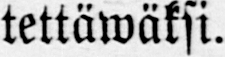tettäwäksi.
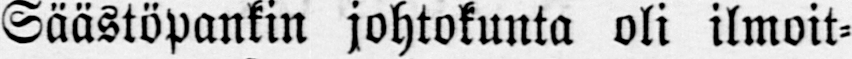Säästöpankin johtokunta oli ilmoit-
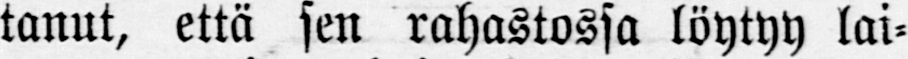tanut, että sen rahastossa löytyy lai-
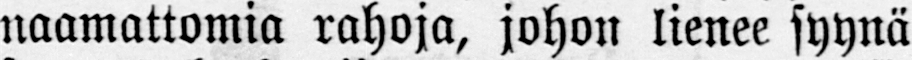naamattomia rahoja, johon lienee syynä
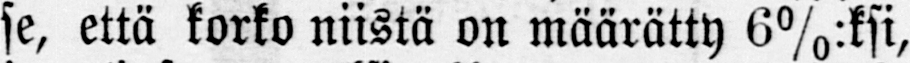se, että korko niistä on määrätty 6%: ksi,
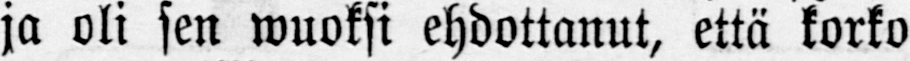ja oli sen wuoksi ehdottanut, että korko
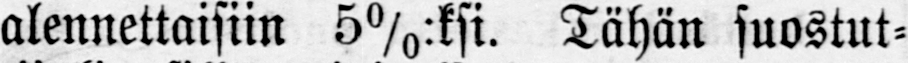alennettaisiin 5%:ksi. Tähän suostut-
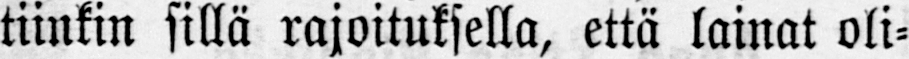tiinkin sillä rajoituksella, että lainat oli-
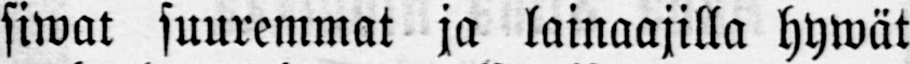siwat suuremmat ja lainaajilla hywät
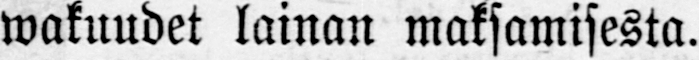wakuudet lainan maksamisesta.
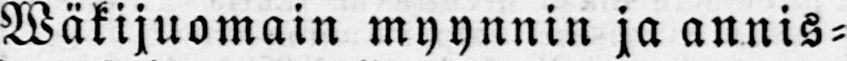Wäkijuomain myynnin ja annis-
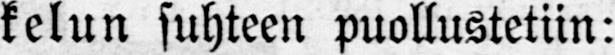kelun suhteen puollustetiin:
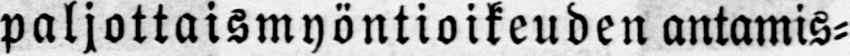paljottaismyöntioikeuden antamis-
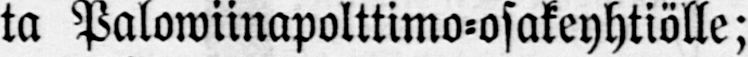ta Palowiinapolttimo-osakeyhtiölle;
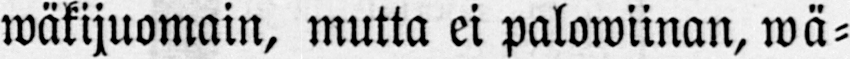wäkijuomain, mutta ei palowiinan, wä-
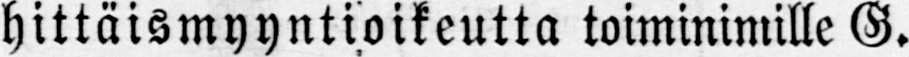hittäismyyntioikeutta toiminimille G.
